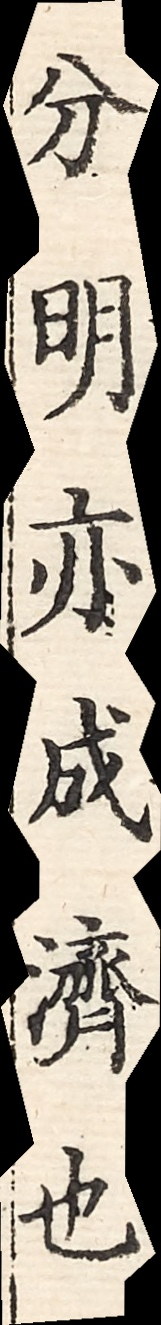分明亦成濟也
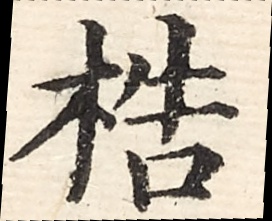梏
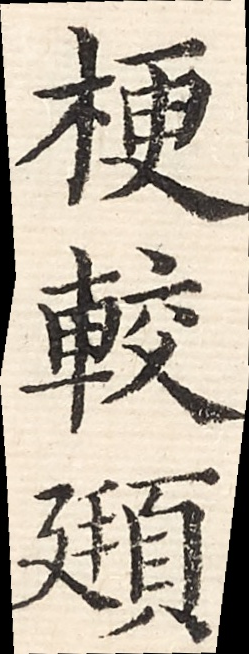梗較頲
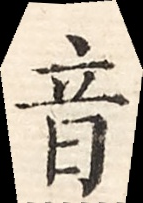音
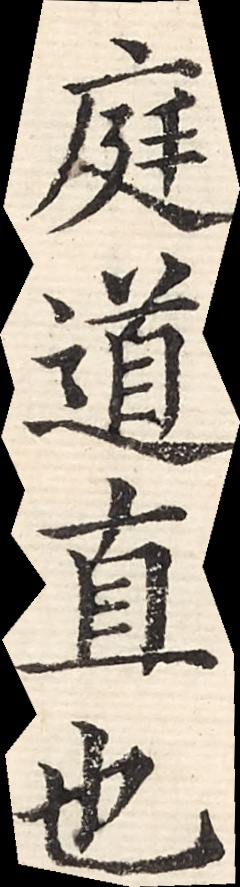庭道直也
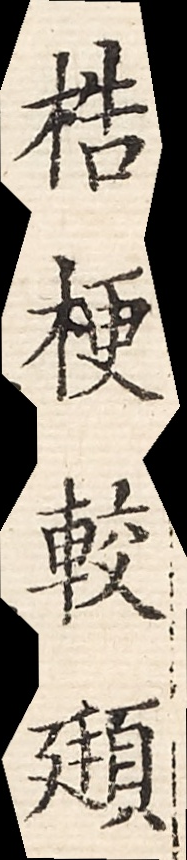梏梗較頲
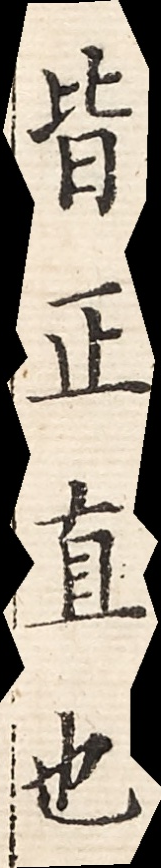皆正直也
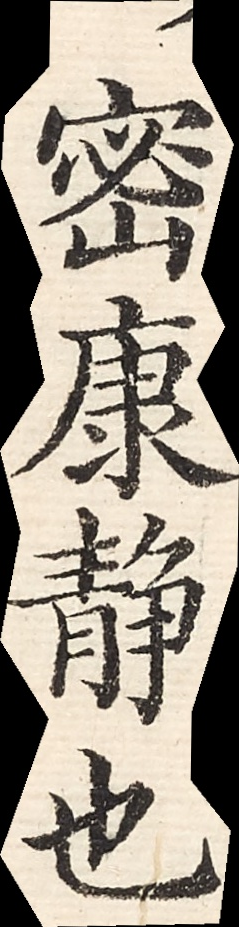密康靜也
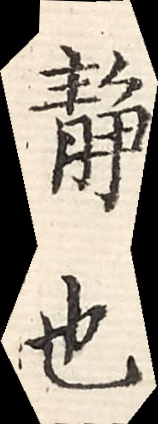靜也
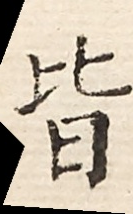皆
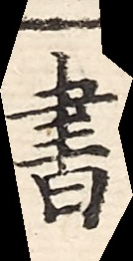書
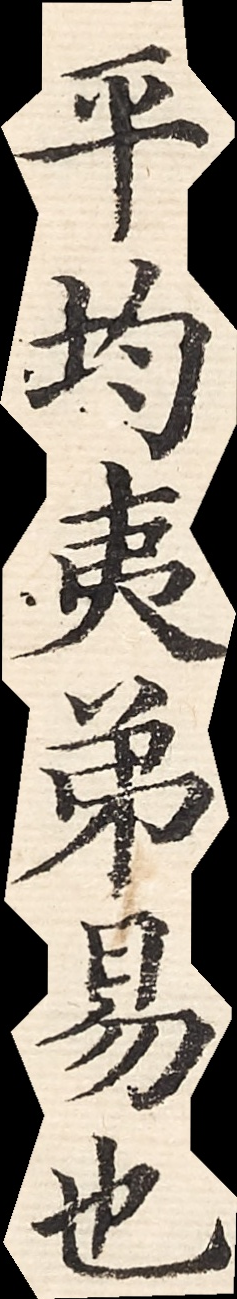平均夷弟易也
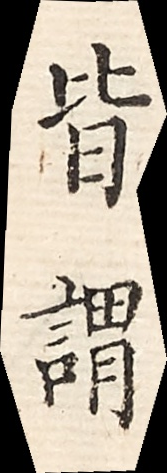皆謂
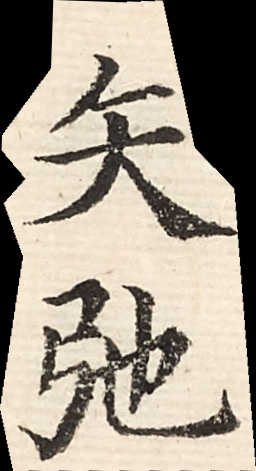矢弛
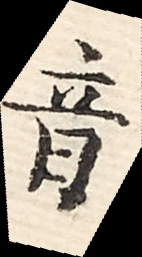音
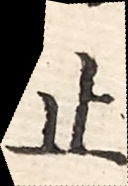止
